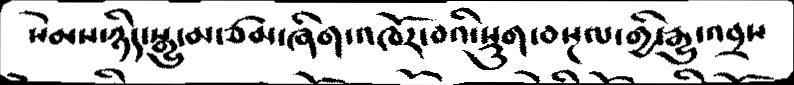སེམས་ཉིད་སྒྱུ་མ་ཙམ་ཞིག་འཁོར་བའི་་སྡུག་བསྔལ་གྱི་རྒྱུ་འབྲས
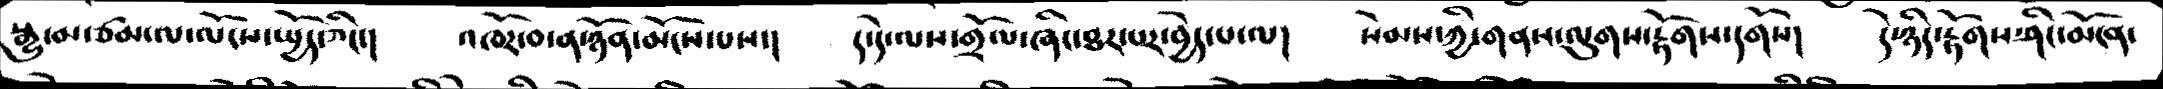སྒྱུ་མ་ཙམ་ལ་ལོངས་སྤྱོད་ཅིང་།   འཁོར་བ་ཉོན་མོངས་པས་།     ད་དེ་ལས་གྲོལ་ཞིང་ཐར་པར་བྱེད་པ་ལ།    སེམས་ཀྱི་གནས་ལུག་རྟོགས་དགོས་།    དེ་ཉིད་རྟོགས་ཤིང་མངོན་
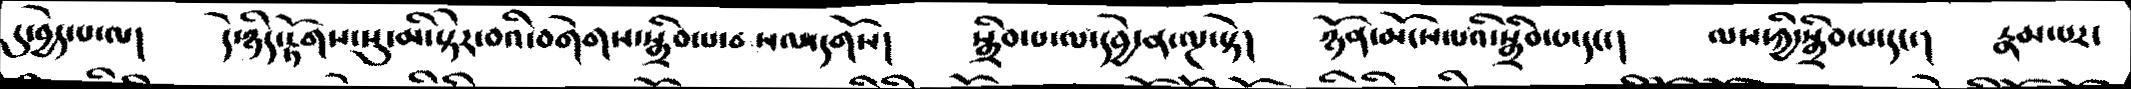དུ་བྱེད་པ་ལ།   དེ་ཉིད་རྟོགས་སུ་མི་སྟེར་བའི་བགེགས་སྒྲིབ་པ་བསལ་དགོས།    སྒྲིབ་པ་ལ་དབྱེ་ན་ལྔ་སྟེ།   ཉོན་མོངས་པའི་སྒྲིབ་པ་དང་།   ལས་ཀྱི་སྒྲིབ་པ་དང་།   རྣམ་པར་
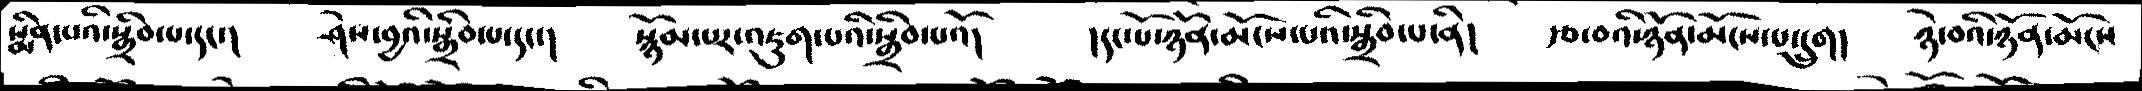སྨིན་པའི་སྒྲིབ་པ་དང་།   ཤེས་བྱའི་སྒྲིབ་པ་དང་།    སྙོམ་པར་འཇུག་པའི་སྒྲིབ་པའོ།   །དང་པོ་ཉོན་མོངས་པའི་སྒྲིབ་པ་ནི།   རྩ་བའི་ཉོན་མོངས་པ་དྲུག།   ཉེ་བའི་ཉོན་མོངས་
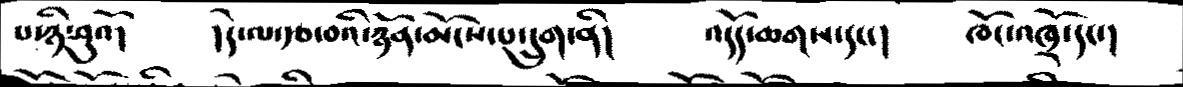པ་ཉི་ཤུའོ།    །དེ་ལ་རྩ་བའི་ཉོན་མོངས་པ་དྲུག་ནི།    འདོད་ཆགས་དང་།    ཁོང་འཁྲོ་དང་།
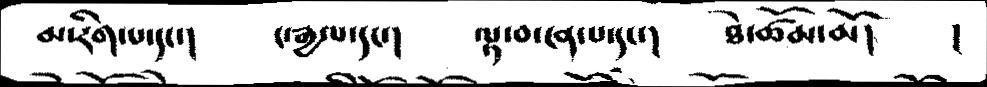མ་རིག་པ་དང་།     ང་རྒྱལ་དང་།       ལྟ་བ་ངན་པ་དང་།      ཐེ་ཚོམ་མོ།        །
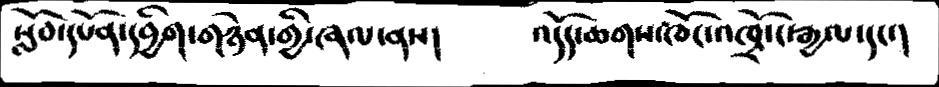སློབ་དཔོན་དབྱིག་གཉེན་གྱི་ཞལ་ནས།    འདོད་ཆགས་ཁོང་འཁྲོ་ང་རྒྱལ་དང་།
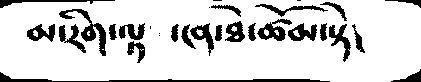མ་རིག་ལྟ    ་ངན་ཐེ་ཚོམ་སྟེ།
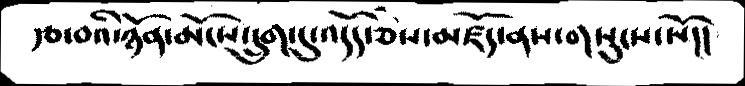རྩ་བའི་ཉོན་མོངས་དྲུག་དུ་འདོད་ཅེས་མཛོད་ནས་གསུངས་སོ།།
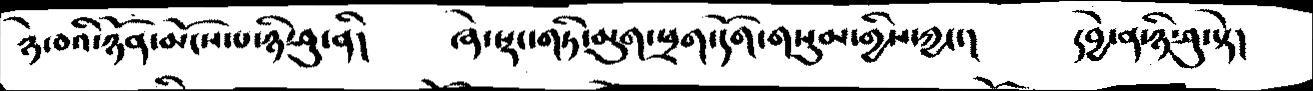ཉེ་བའི་ཉོན་མོངས་པ་ཉི་ཤུ་ནི།     ཞེ་སྡང་གཏི་མུག་ཕྲག་དོག་གསུམ་གྱིས་ཀྱང་།     དབྱེ་ན་ཉི་ཤུ་སྟེ།
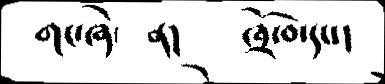གང་ཞེ་   ན།     ཁྲོ་བ་དང་།
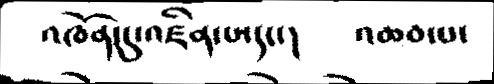འཁོན་དུ་འཛིན་པ་དང་།      འཆབ་པ་
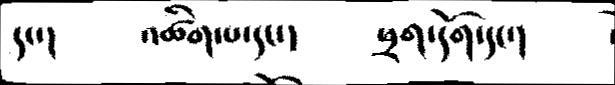དང་།    འཚིག་པ་དང་།      ཕྲག་དོག་དང་།
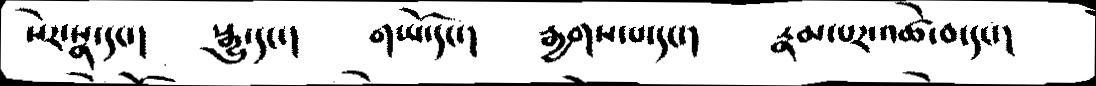སེར་སྣ་དང་།    སྒྱུ་དང་།     གཡོ་དང་།    རྒྱགས་པ་དང་།     རྣམ་པར་འཚེ་བ་དང་།
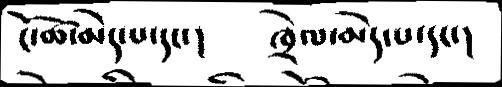ངེ་ཚ་མེད་པ་དང་།    ཁྲེལ་མེད་པ་དང་།
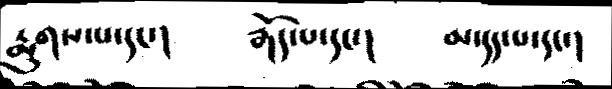རྨུགས་པ་དང་།     རྒོད་པ་དང་།    མ་དད་པ་དང་།
